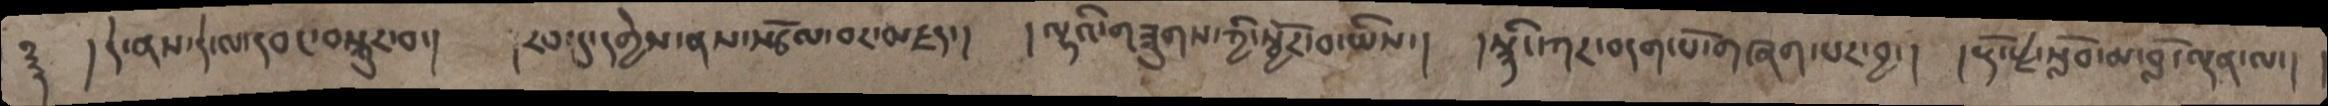༈  ། དེ་ནས་དེ་ལ་དབང་བསྐུར་བ་།  །རབ་དུ་དགྱེས་ནས་སྩོལ་བར་མཛད་།  །ལྷའི་གཟུགས་ཀྱི་སྦྱོར་བ་ཡིས་།  །སྙིང་དཀར་བདག་པོ་གཞག་པར་བྱ་།  །རྡོ་རྗེ་སློབ་མ་བློ་ལྡན་ལ་།  །
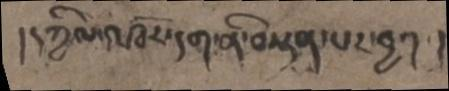།དཀྱིལ་འཁོར་དག་ནི་བསྟན་པར་བྱ་། །
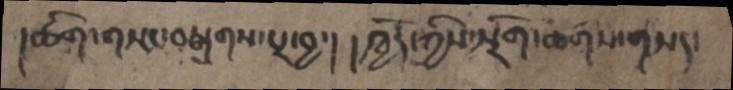།ཚིག་གསང་བསྒྲགས་པར་བྱ་།  །ཁྱོད་ཀྱིས་སྲོག་ཆགས་གསད་
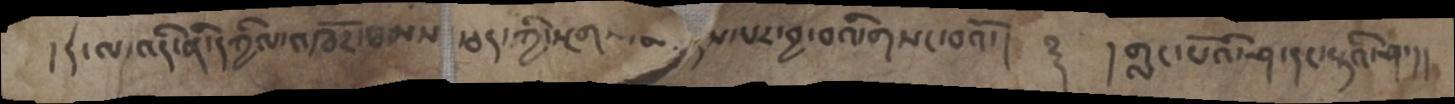།དེ་ལ་འདི་ནི་དཀྱིལ་འཁོར་ཐམས་ཅད་ཀྱི་སྔགས་མ་འདས་པར་བྱ་བའི་གསང་བའོ་། ༈ །གླང་པོའི་ཤ་དང་རྟའི་ཤ་།།
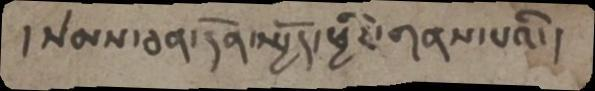། སེམས་ཅན་དོན་སྤྱོད་ཕྱིར་གནས་པའི་།
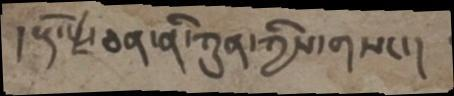། རྡོ་རྗེ་ཅན་ནི་ཀུན་ཀྱིས་གསང་།
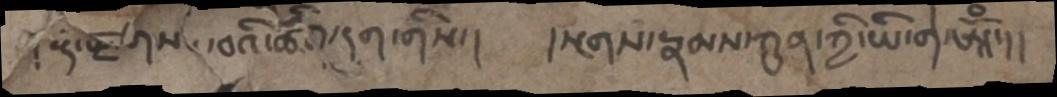།རྡོ་རྗེ་གསང་བའི་ཚིག་དག་གིས་།  །སྔགས་རྣམས་ཀུན་ཀྱི་ཡི་གེ་ཨཱོཾ་།།
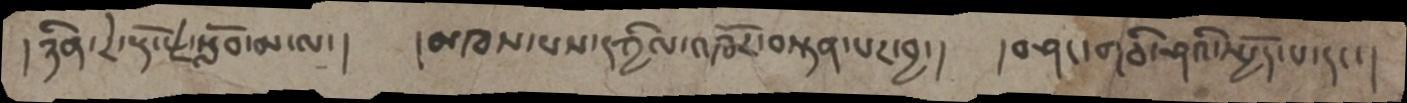ཉིན་རེ་རྡོ་རྗེ་སློབ་མ་ལ།  །མཁས་པས་དཀྱིལ་འཁོར་བསྟན་པར་བྱ་།  །བཤང་གཅི་ཤའི་སྤྱོད་པ་དང་།
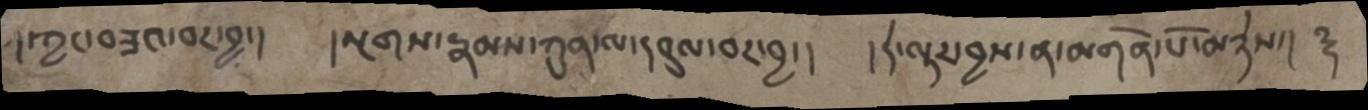།་ཀྱང་བཟའ་བར་བྱ་།   །སྔགས་རྣམས་ཀུན་ལ་དབུལ་བར་བྱ་།  །དེ་ལྟར་བྱས་ན་མགོན་པོ་མཉེས་། ࿑
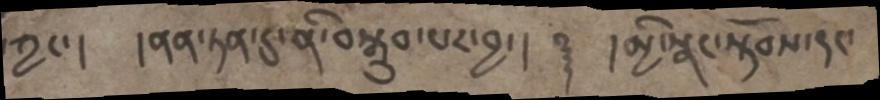ཀྱང་།    །ནན་ཏན་དུ་ནི་བསྒྲུབ་པར་བྱ་།    ࿑  །མྱི་སྣང་སྟོབས་དང་
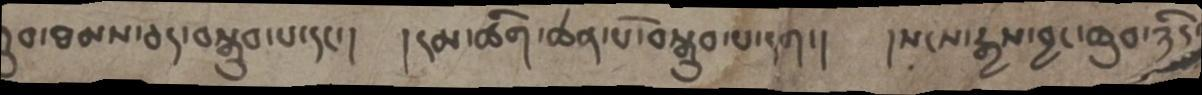བ་ཐམས་ཅད་བསྒྲུབ་པ་དང་།   །དམ་ཚིག་ཆེན་པོ་བསྒྲུབ་པ་དག་།   །སངས་རྒྱས་བྱང་ཆུབ་ཉིད་
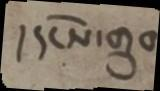། དངོས་གྲུབ
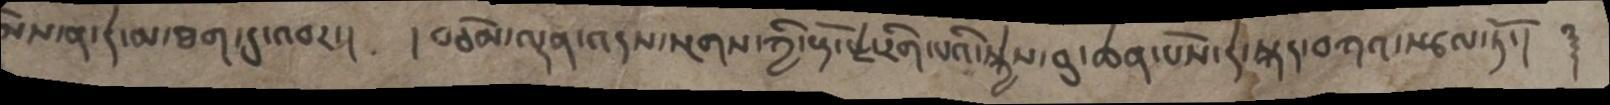མོས་ན་དེ་མ་ཐག་དུ་འབར་།   །བཅོམ་ལྡན་འདས་སྔགས་ཀྱི་རྡོ་རྗེ་རིག་པའི་སྐྱེས་བུ་ཆེན་པོས་དེ་སྐད་བཀའ་སྩལ་ཏོ་།  ࿑
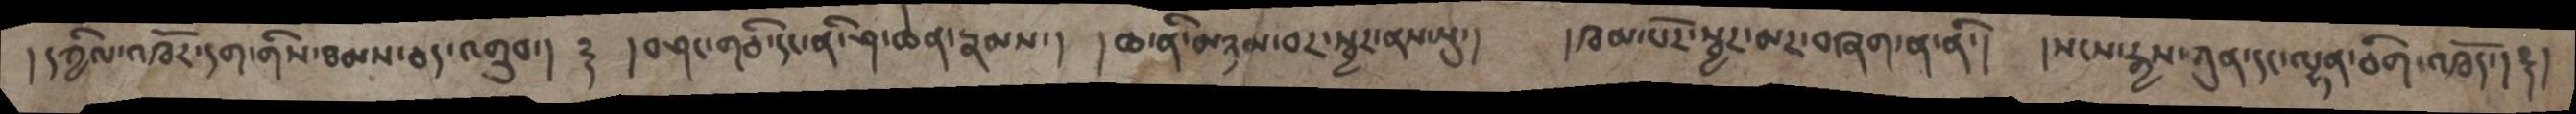། དཀྱིལ་འཁོར་དག་གིས་ཐམས་ཅད་འགྲུབ་། ༈ །བཤང་གཅི་དང་ནི་ཤ་ཆེན་རྣམས་། །ཆ་ནི་མཉམ་བར་སྦྱར་ནས་སུ་།  །ཁམ་པོར་སྦྱར་མར་བཞག་ན་ནི་། །སངས་རྒྱས་ཀུན་དང་ལྷན་ཅིག་འཁོད་། ༈ །
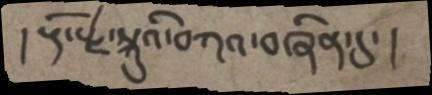།རྡོ་རྗེ་སྐུའི་བཀའ་བཞིན་དུ་།
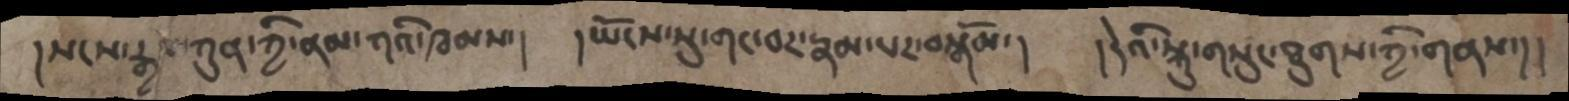།སངས་རྒྱས་ཀུན་ཀྱི་ནམ་ཀའི་ཁམས་། །ཡོངས་སུ་གང་བར་རྣམ་པར་བསྒོམ་།  །དེའི་སྐུ་གསུང་ཐུགས་ཀྱི་གནས་། །
